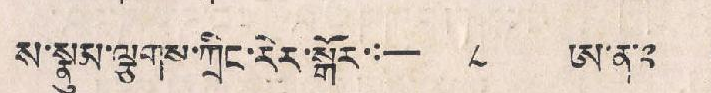ས་སྣུམ་ལྕགས་ཀྲིང་རེར་སྒོར་:— ༨ ཨ་ན་ ༢ ༢
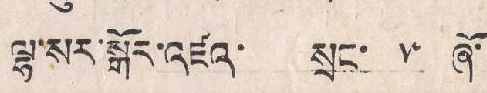ལྷ་སར་སྒོར་འཛའ་ སྲང་ ༥ ཞོ་
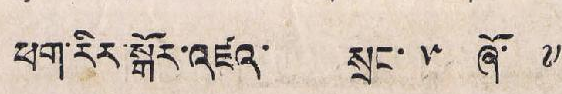ཕག་རིར་སྒོར་འཛའ་ སྲང་ ༥ ཞོ་ ༧
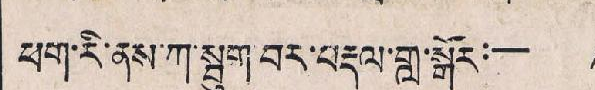ཕག་རི་ནས་ཀ་སྤུག་བར་བརྡལ་གླ་སྒོར་:— /
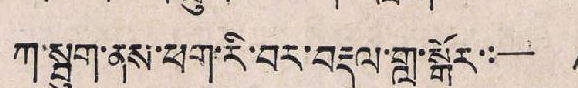ཀ་སྦུག་ནས་ཕག་རི་བར་བརྡར་གླ་སྒོར་:— /
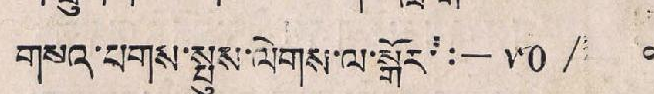གསའ་པགས་སྤུས་ལེགས་ལ་སྒོར་  ༥༠ / ༠
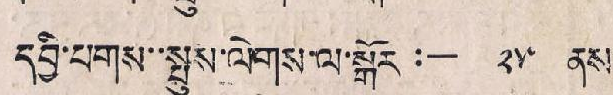དབྱི་པགས་་སྤུས་ལེགས་ལ་སྒོར་:— ༢༥ ནས་
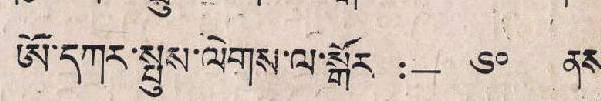ཨོ་དཀར་སྤུས་ལེགས་ལ་སྒོར་:— ༦༠ ནས་
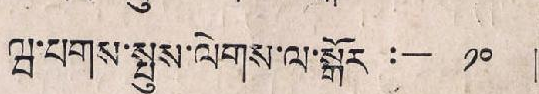ཝ་པགས་སྤུས་ལེགས་ལ་སྒོར་:— ༡༠ ||
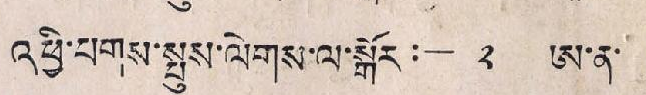འཕྱི་པགས་སྤུས་ལེགས་ལ་སྒོར་:— ༢ ཨ་ན་ /
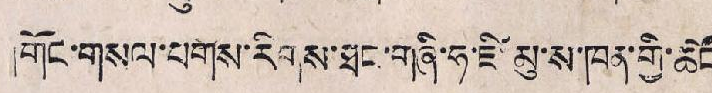།གོང་གསལ་པགས་རིགས་ཐང་གཞི་ཧ་ཇི་མུ་ས་ཁན་གྱི་ཚོང་
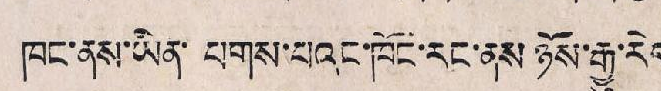ཁང་ནས་ཡིན་ པགས་པའང་ཁོང་རང་ནས་ཉོས་རྒྱུ་རེད།
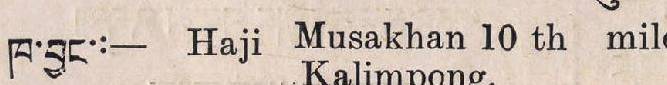ཁ་བྱང་:— Haji Musakhan 10th mile
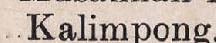Kalimpong.
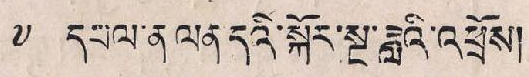༸ དཔལ་ན་ལན་དའི་སྐོར་སྔ་ཟླའི་འཕྲོས།
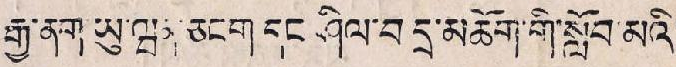རྒྱ་ནག ཡུ་ཝན་ཅངག དང ཤིལ་བ་དྲ་མཆོག་གི་སློབ་མའི་
